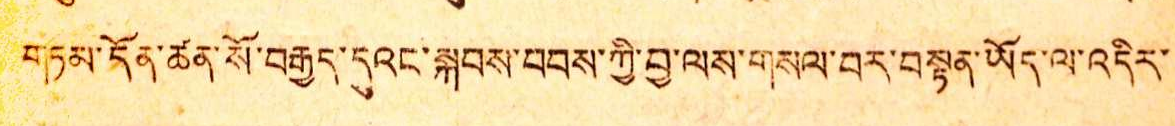གཏམ་དོན་ཚན་སོ་བརྒྱད་དུའང་སྐབས་བབས་ཀྱི་བྱ་ལས་གསལ་བར་བསྟན་ཡོད་ལ་འདིར་
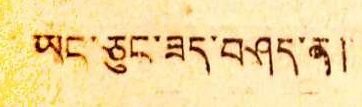ཡང་ཅུང་ཟད་བཤད་ན།
